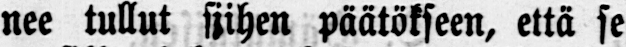nee tullut siihen päätökseen, että se
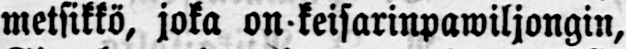metsikkö, joka on-keisarinpawiljongin,
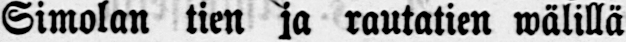Simolan tien ja rautatien wälillä
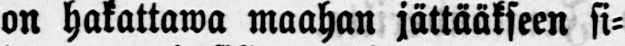on hakattawa maahan jättääkseen si-
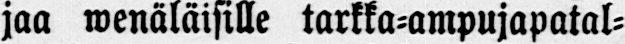jaa wenäläisille tarkka-ampujapatal-
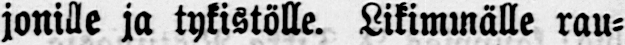jonille ja tykistölle. Likimmälle rau-
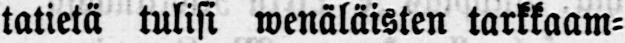tatietä tulisi wenäläisten tarkkaam-
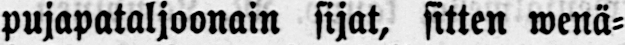pujapataljoonain sijat, sitten wenä-
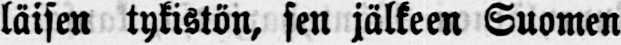läisen tysistön, sen jälkeen Suomen
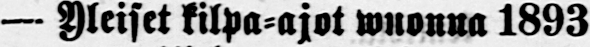— Yleiset kilpa-ajot wuonna 1893
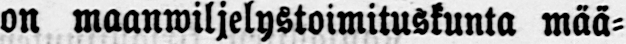on maanwiljelystoimituskunta mää-
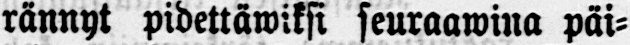rännyt pidettäwiksi seuraawina päi-
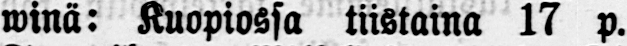winä: Kuopiossa tiistaina 17 p.
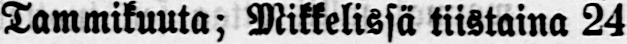Tammikuuta; Mikkelissä tiistaina 24
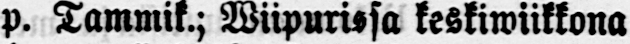p. Tammik.; Wiipurissa keskiwiikkona
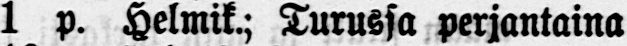1 p. Helmik.; Turussa perjantaina
